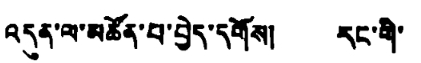འདུན་ལ་མཚོན་པ་བྱེད་དགོས། རང་གི་
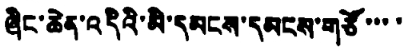ཞིང་ཆེན་འདིའི་མི་དམངས་དམངས་གཙོ་་་་
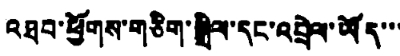འཐབ་ཕྱོགས་གཅིག་སྒྲིལ་དང་འབྲེལ་ཡོད་་་
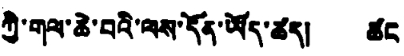ཀྱི་གལ་ཆེ་བའི་ལས་དོན་ཡོད་ཚད། ཚང
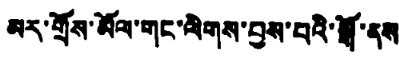མར་གྲོས་མོལ་གང་ལེགས་བྱས་པའི་སྒོ་ནས
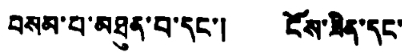བསམ་པ་མཐུན་པ་དང་། ངོས་ཟིན་དང་
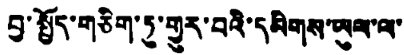བྱ་སྤྱོད་གཅིག་ཏུ་གྱུར་བའི་དམིགས་ཡུལ་ལ་་
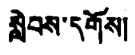སླེབས་དགོས།
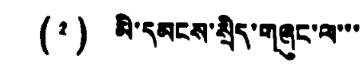(༢) མི་དམངས་སྲིད་གཞུང་ལ་་་
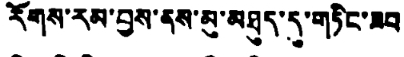རོགས་རམ་བྱས་ནས་མུ་མཐུད་དུ་གཏིང་ཟབ
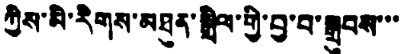ཀྱིས་མི་རིགས་མཐུན་སྒྲིལ་གྱི་བྱ་བ་སྒྲུབས་་་
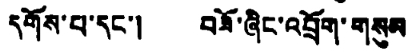དགོས་པ་དང་། བཟོ་ཞིང་འབྲོག་གསུམ
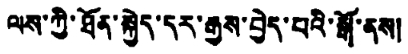ལས་ཀྱི་ཐོན་སྐྱེད་དར་རྒྱས་བྱེད་པའི་སྒོ་ནས།
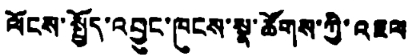ལོངས་སྤྱོད་འབྱུང་ཁུངས་སྣ་ཚོགས་ཀྱི་འཇལ
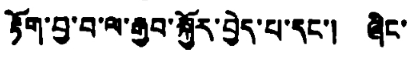རྟོག་བྱ་བ་ལ་རྒྱབ་སྐྱོར་བྱེད་པ་དང་། ཞིང་
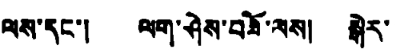ལས་དང་། ལག་ཤེས་བཟོ་ལས། སྒེར་
